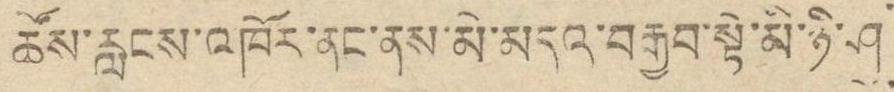ཚོས་རླངས་འཁོར་ནང་ནས་མེ་མདའ་བརྒྱབ་སྟེ་མི་ཉི་ཤུ་
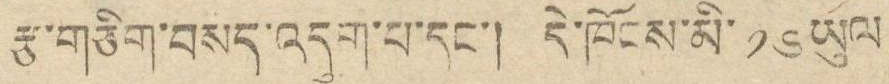རྩ་གཅིག་བསད་འདུག་པ་དང་། དེ་ཁོངས་མི་ ༡༦ ཡུལ
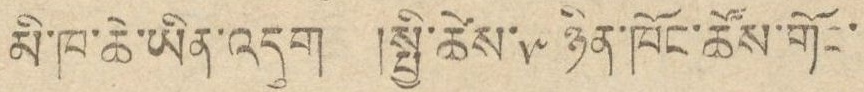མི་ཁ་ཆེ་ཡིན་འདུག །སྤྱི་ཚེས་ ༥ ཉིན་ཁོང་ཚོས་གོང་
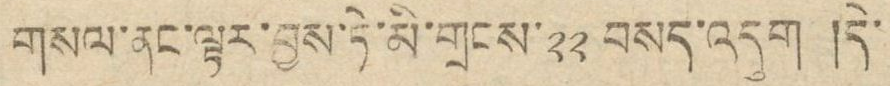གསལ་ནང་ལྟར་བྱས་ཏེ་མི་གྲངས་ ༢༢ བསད་འདུག །དེ་
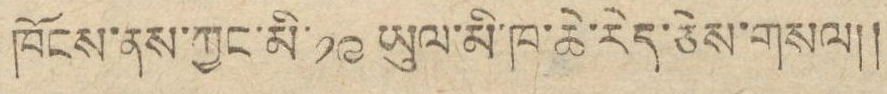ཁོངས་ནས་ཀྱང་མི་༡༩ ཡུལ་མི་ཁ་ཆེ་རེད་ཅེས་གསལ།།
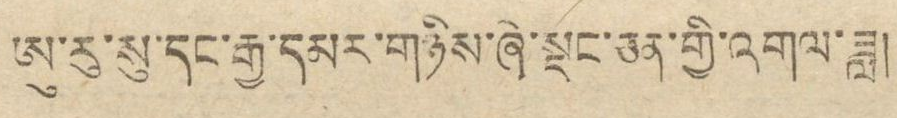ཨུ་རུ་སུ་དང་རྒྱ་དམར་གཉིས་ཞེ་སྡང་ཅན་གྱི་འགལ་ཟླ།
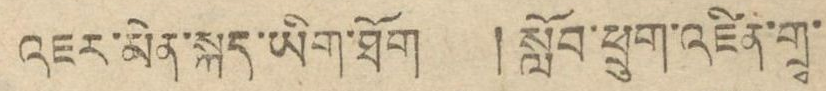འཇར་མེན་སྐད་ཡིག་ཐོག །སློབ་ཕྲུག་འཛིན་གྲྭ་
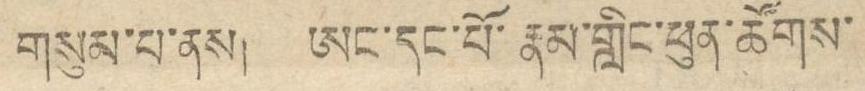གསུམ་པ་ནས། ཨང་དང་པོ་རྣམ་གླིང་ཕུན་ཚོགས་
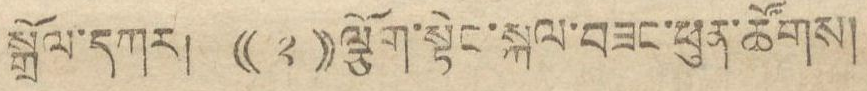སྒྲོལ་དཀར། (( ༢ ))ལྕོག་སྟེང་སྐལ་བཟང་ཕུན་ཚོགས།
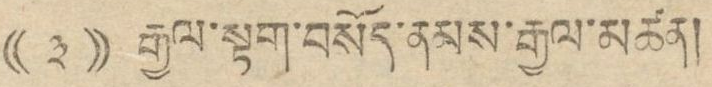(( ༣ )) རྒྱལ་སྟག་བསོད་ནམས་རྒྱལ་མཚན།
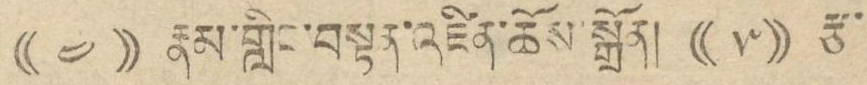(( ༤ )) རྣམ་གླིང་བསྟན་འཛིན་ཆོས་སྒྲོན། (( ༥ )) རྩ་
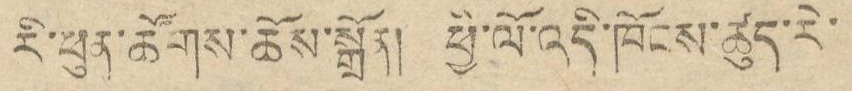རི་ཕུན་ཚོགས་ཆོས་སྒྲོན། ཕྱི་ལོ་འདི་ཁོངས་ཚུད་རེ་
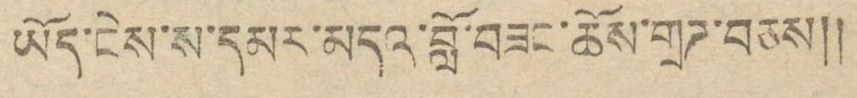ཡོད་ངེས་ས་དམར་མདའ་བློ་བཟང་ཆོས་གྲཌ་བཅས།།
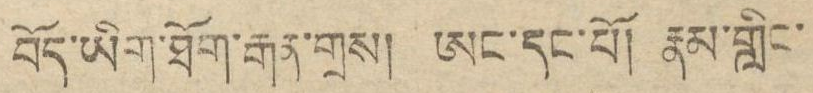བོད་ཡིག་ཐོག་རྒན་གྲས། ཨང་དང་པོ། རྣམ་གླིང་
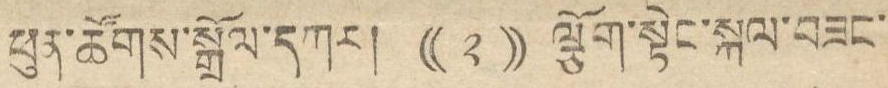ཕུན་ཚོགས་སྒྲོལ་དཀར། (( ༢ )) ལྕོག་སྟེང་སྐལ་བཟང་
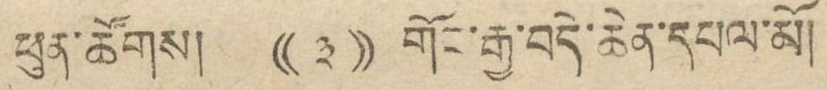ཕུན་ཚོགས། (( ༣ )) གོང་རྒྱ་བདེ་ཆེན་དཔལ་མོ།
